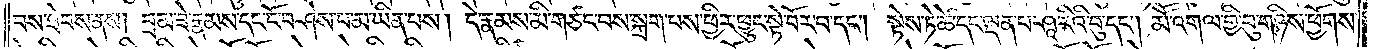བས་ཐེབས་ནས། བྲམ་ཟེ་རྣམས་དང་ངོ་བཤེས་པ་མ་ཡིན་པས། དེ་རྣམས་མི་གཙང་བས་སྐྲག་པས་ཕྱིར་ཕྱུང་སྟེ་བོར་བ་དང༌། སྟེས་ཏེ་ཚེ་དང་ལྡན་པ་ཤཱ་རིའི་བུ་དང༌། མཽ་འགལ་གྱི་བུ་གཉིས་ཕྱོགས་
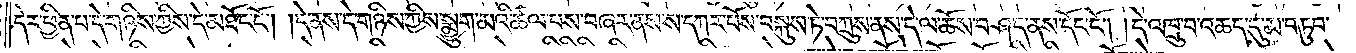དེང་ཕྱིན་པ་དེ་གཉིས་ཀྱིས་དེ་མཐོང་ངོ༌། །དེ་ནས་དེ་གཉིས་ཀྱིས་སྨྱུག་མའི་ཚལ་པས་བཞར་ནས་ས་དཀར་པོས་བསྐུས་ཏེ་བཀྲུས་ནས་དེ་ལ་ཆོས་བཤད་ནས་དོང་ངོ༌། །དེ་འཁྲུ་བ་འཆད་དུ་མ་བཏུབ་
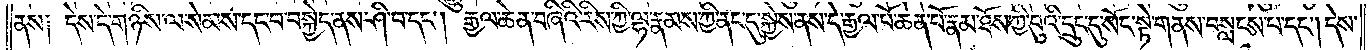ནས། དེས་དེ་གཉིས་ལ་སེམས་དང་བ་བསྐྱེད་ནས་ཤི་བ་དང༌། རྒྱལ་ཆེན་བཞིའི་རིས་ཀྱི་ལྷ་རྣམས་ཀྱི་ནང་དུ་སྐྱེས་ནས་དེ་རྒྱལ་པོ་ཆེན་པོ་རྣམ་ཐོས་ཀྱི་བུའི་དྲུང་དུ་སོང་སྟེ་གནས་བསླངས་པ་དང༌། དེས་
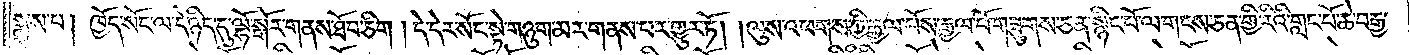སྨྲས་པ། ཁྱོད་སོང་ལ་དེ་ཉིད་དུ་ལྷོ་སྒོར་གནས་ཐོབ་ཅིག །དེ་དེར་སོང་སྟེ་གཉུག་མར་གནས་པར་གྱུར་ཏོ། །ལུས་འཕགས་ཀྱི་རྒྱལ་པོས་རྒྱལ་པོ་གཟུགས་ཅན་སྙིང་པོ་ལ་གངས་ཅན་གྱི་རིའི་གླང་པོ་ཆེ་བརྒྱ་
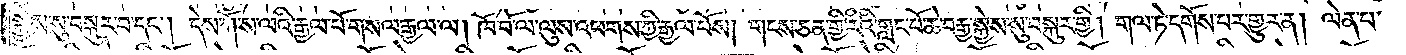སྐྱེས་སུ་བསྐུར་བ་དང༌། དེས་ཀོ་ས་ལའི་རྒྱལ་པོ་གསལ་རྒྱལ་ལ། ཁོ་བོ་ལ་ལུས་འཕགས་ཀྱི་རྒྱལ་པོས། གངས་ཅན་གྱི་རིའི་གླང་པོ་ཆེ་བརྒྱ་སྐྱེས་སུ་བསྐུར་གྱི། གལ་ཏེ་དགོས་པར་གྱུར་ན། ལེན་པ་
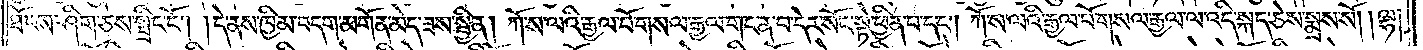ཐོངས་ཤིག་ཅེས་སྤྲིང་ངོ༌། །དེ་ནས་ཁྱིམ་བདག་མགོན་མེད་ཟས་སྦྱིན། ཀོ་ས་ལའི་རྒྱལ་པོ་གསལ་རྒྱལ་གང་ན་བ་དེར་སོང་སྟེ་ཕྱིན་པ་དང༌། ཀོ་ས་ལའི་རྒྱལ་པོ་གསལ་རྒྱལ་ལ་འདི་སྐད་ཅེས་སྨྲས་སོ། །ལྷ།
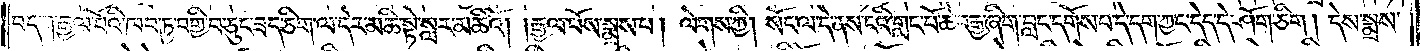བདག་རྒྱལ་པོའི་ཁབ་ཏུ་བགྱི་བ་ཅུང་ཟད་ཅིག་ལ་དེར་མཆི་སྟེ་སླར་མཆིའོ། །རྒྱལ་པོས་སྨྲས་པ། ལེགས་ཀྱི། སོང་ལ་དེ་ནས་ངའི་གླང་པོ་ཆེ་བརྒྱ་ཞིག་བླང་དགོས་པ་དེ་དག་ཀྱང་དེད་དེ་ཤོག་ཅིག །དེས་སྨྲས་
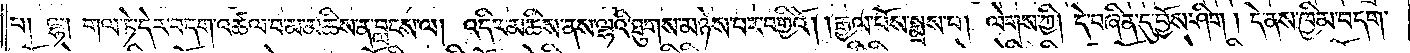པ། ལྷ། གལ་ཏེ་དེར་བདག་འཚལ་བ་མ་མཆིས་ན་བླངས་ལ། འདིར་མཆིས་ནས་ལྷའི་ཐུགས་མཉེས་པར་བགྱིའོ། །རྒྱལ་པོས་སྨྲས་པ། ལེགས་ཀྱི། དེ་བཞིན་དུ་བྱོས་ཤིག །དེ་ནས་ཁྱིམ་བདག་
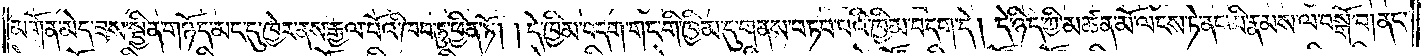མགོན་མེད་ཟས་སྦྱིན་གཉོད་མང་དུ་ཁྱེར་ནས་རྒྱལ་པོའི་ཁབ་ཏུ་ཕྱིན་ཏོ། །དེ་ཁྱིམ་བདག་གང་གི་ཁྱིམ་དུ་གནས་བཏབ་པའི་ཁྱིམ་བདག་དེ། དེ་ཉིད་ཀྱི་མཚན་མོ་ལངས་ཏེ་ནང་མི་རྣམས་ལ་བསྒོ་བ། ནང་
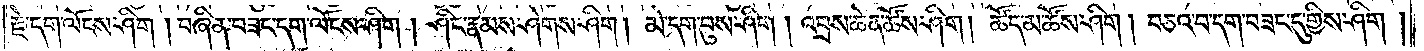རྗེ་དག་ལོངས་ཤིག །བཞིན་བཟང་དག་ལོངས་ཤིག །ཤིང་རྣམས་ཤེགས་ཤིག །མེ་དག་བུས་ཤིག། འབྲས་ཆེན་ཚོས་ཤིག །ཚོད་མ་ཚོས་ཤིག། བཅའ་བ་དག་བཟང་དུ་གྱིས་ཤིག །
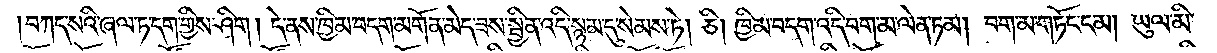།བཀད་སའི་ཞལ་ཏ་དག་གྱིས་ཤིག །དེ་ནས་ཁྱིམ་བདག་མགོན་མེད་ཟས་སྦྱིན་འདི་སྙམ་དུ་སེམས་ཏེ། ཅི། ཁྱིམ་བདག་འདི་བག་མ་ལེན་ཏམ། བག་མ་གཏོང་ངམ། ཡུལ་མི་
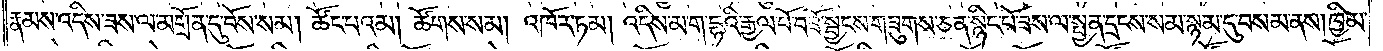རྣམས་འདིས་ཟས་ལ་མགྲོན་དུ་བོས་སམ། ཚོང་པའམ། ཚོགས་སམ། འཁོར་ཏམ། འདིས་མ་ག་དྷའི་རྒྱལ་པོ་བཟོ་སྦྱངས་གཟུགས་ཅན་སྙིང་པོ་ཟས་ལ་སྤྱན་དྲངས་སམ་སྙམ་དུ་བསམ་ནས། ཁྱིམ་
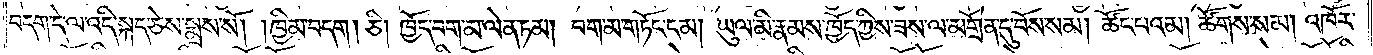བདག་དེ་ལ་འདི་སྐད་ཅེས་སྨྲས་སོ། །ཁྱིམ་བདག། ཅི། ཁྱོད་བདག་མ་ལེན་ཏམ། བག་མ་གཏོང་ངམ། ཡུལ་མི་རྣམས་ཁྱོད་ཀྱིས་ཟས་ལ་མགྲོན་དུ་བོས་སམ། ཚོང་པའམ། ཚོགས་སམ། འཁོར་
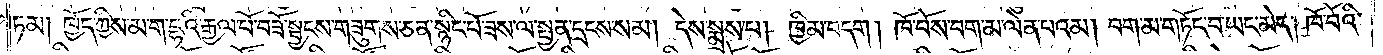ཏམ། ཁྱོད་ཀྱིས་མ་ག་དྷའི་རྒྱལ་པོ་བཟོ་སྦྱངས་གཟུགས་ཅན་སྙིང་པོ་ཟས་ལ་སྤྱན་དྲངས་སམ། དེས་སྨྲས་པ། ཁྱིམ་བདག། ཁོ་བོས་བག་མ་ལེན་པའམ། བག་མ་གཏོང་བ་ཡང་མེད། ཁོ་བོའི་
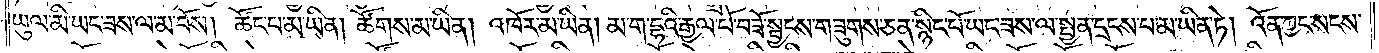ཡུལ་མི་ཡང་ཟས་ལ་མ་བོས། ཚོང་པ་མ་ཡིན། ཚོགས་མ་ཡིན། འཁོར་མ་ཡིན། མ་ག་དྷའི་རྒྱལ་པོ་བཟོ་སྦྱངས་གཟུགས་ཅན་སྙིང་པོ་ཡང་ཟས་ལ་སྤྱན་དྲངས་པ་མ་ཡིན་ཏེ། འོན་ཀྱང་སངས་
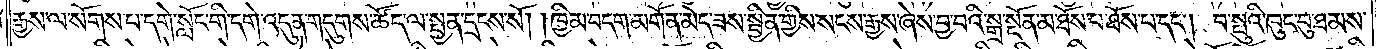རྒྱས་ལ་སོགས་པ་དགེ་སློང་གི་དགེ་འདུན་གདུགས་ཚོད་ལ་སྤྱན་དྲངས་སོ། །ཁྱིམ་བདག་མགོན་མེད་ཟས་སྦྱིན་གྱིས་སངས་རྒྱས་ཞེས་བྱ་བའི་སྒྲ་སྔོན་མ་ཐོས་པ་ཐོས་པ་དང༌། བ་སྤུའི་ཁུང་བུ་ཐམས་
